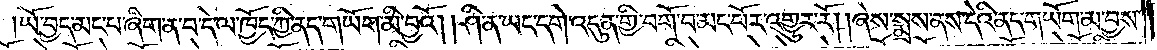ཡོ་བྱད་མང་པ་ཞིག་ན་བ་དེ་ལ་ཁྱོད་ཀྱི་ནད་གཡོག་མི་བྱའོ། །ཤི་ན་ཡང་དགེ་འདུན་གྱི་བགོ་བ་མང་པོར་འགྱུར་རོ། །ཞེས་སྨྲས་ནས་དེའི་ནད་གཡོག་མ་བྱས་
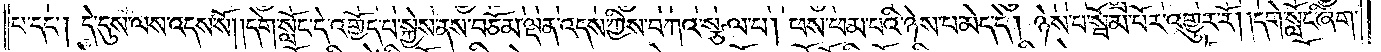པ་དང༌། དེ་དུས་ལས་འདས་སོ། །དགེ་སློང་དེ་འགྱོད་པ་སྐྱེས་ནས་བཅོམ་ལྡན་འདས་ཀྱིས་བཀའ་སྩལ་པ། ཕས་ཕམ་པའི་ཉེས་པ་མེད་དེ། ཉེས་པ་སྦོམ་པོར་འགྱུར་རོ། །དགེ་སློང་ཞིག།
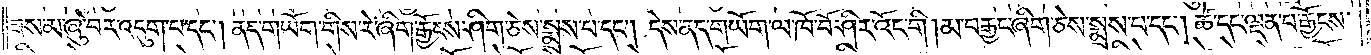ཟས་མ་ཞུ་བར་འདུག་པ་དང༌། ནད་གཡོག་གིས་རེ་ཞིག་རྒྱོངས་ཤིག་ཅེས་སྨྲས་པ་དང༌། དེས་ནད་གཡོག་ལ་ཁོ་བོ་ཤིར་འོང་གི །མ་བརྒྱང་ཞིག་ཅེས་སྨྲས་པ་དང༌། ཚེ་དང་ལྡན་པ་རྒྱོངས་
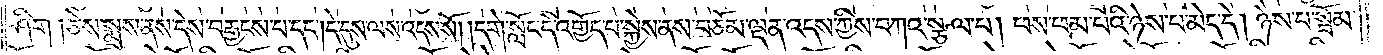ཤིག །ཅེས་སྨྲས་ནས་དེས་བརྒྱངས་པ་དང༌། དེ་དུས་ལས་འདས་སོ། །དགེ་སློང་དེ་འགྱོད་པ་སྐྱེས་ནས་བཅོམ་ལྡན་འདས་ཀྱིས་བཀའ་སྩལ་པ། ཕས་ཕམ་པའི་ཉེས་པ་མེད་དེ། ཉེས་པ་སྦོམ་
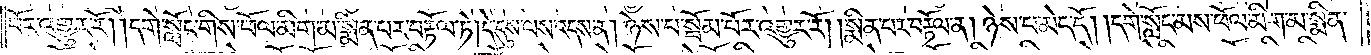པོར་འགྱུར་རོ། །དགེ་སློང་གིས་ཕོལ་མིག་མ་སྨིན་པར་བརྟོལ་ཏེ། དེ་དུས་ལས་འདས་ན། ཉེས་པ་སྦོམ་པོར་འགྱུར་རོ། །སྨིན་པར་བརྟོལ་ན། ཉེས་པ་མེད་དོ། །དགེ་སློང་མས་ཕོལ་མིག་མ་སྨིན་
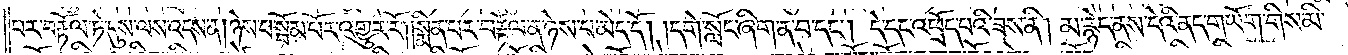པར་བརྟོལ་ཏེ་དུས་ལས་འདས་ན། ཉེས་པ་སྦོམ་པོར་འགྱུར་རོ། །སྨིན་པར་བརྟོལ་ན་ཉེས་པ་མེད་དོ། །དགེ་སློང་ཞིག་ན་བ་དང༌། དེ་དང་འཕྲོད་པའི་ཟས་ནི། མ་རྙེད་ནས་དེའི་ནད་གཡོག་གིས་མི་
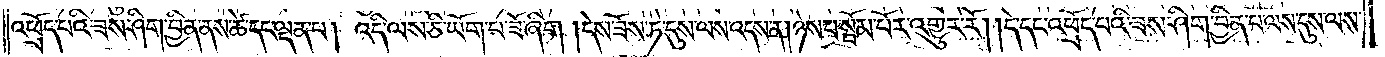འཕྲོད་པའི་ཟས་ཤིག་བྱིན་ནས་ཚེ་དང་ལྡན་པ། འདི་ལས་ཅི་ཡོག་པ་ཟོ་ཞིག །དེས་ཟོས་ཏེ་དུས་ལས་འདས་ན། ཉེས་པ་སྦོམ་པོར་འགྱུར་རོ། །དེ་དང་འཕྲོད་པའི་ཟས་ཤིག་བྱིན་པ་ལས་དུས་ལས་
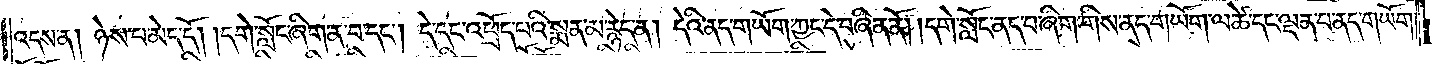འདས་ན། ཉེས་པ་མེད་དོ། །དགེ་སློང་ཞིག་ན་བ་དང༌། དེ་དང་འཕྲོད་པའི་སྨན་མ་རྙེད་ན། དེའི་ནད་གཡོག་ཀྱང་དེ་བཞིན་ནོ། །དགེ་སློང་ནད་བ་ཞིག་གིས་ནད་གཡོག་ལ་ཚེ་དང་ལྡན་པ་ནད་གཡོག།
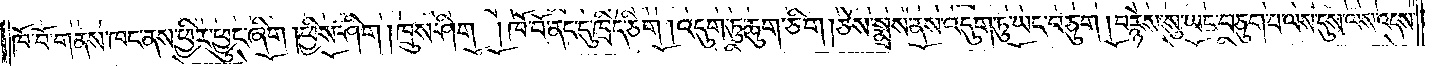ཁོ་བོ་གནས་ཁང་ནས་ཕྱིར་ཕྱུང་ཞིག །ཕྱིས་ཤིག །ཁྲུས་ཤིག །ཁོ་བོ་ནང་དུ་ཁྲིད་ཅིག །འདུག་ཏུ་ཆུག་ཅིག །ཅེས་སྨྲས་ནས་འདུག་ཏུ་ཡང་བཅུག །བརྙེས་སུ་ཡང་བཅུག་པ་ལས་དུས་ལས་འདས་
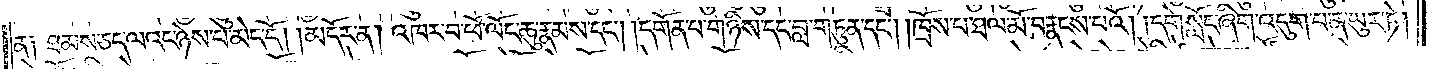ན༑ ཐམས་ཅད་ལའང་ཉེས་པ་མེད་དོ། །མདོར་ན། འཁར་བ་ཕོ་ལོང་ཆུ་རྣམས་དང༌། །དགོན་པ་གཉིས་དང་བླ་གཏུན་དང༌། ཁྲོས་པ་ཐལ་མོ་བརྣངས་པའོ། །དགེ་སློང་ཞིག་འདུག་པ་ན་ཡུར་ཏེ།
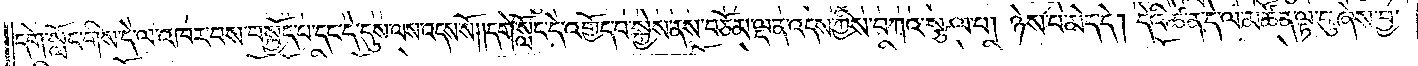དགེ་སློང་གིས་དེ་ལ་འཁར་བས་བསྐྱོད་པ་དང་དེ་དུས་ལས་འདས་སོ། །དགེ་སློང་དེ་འགྱོད་པ་སྐྱེས་ནས་བཅོམ་ལྡན་འདས་ཀྱིས་བཀའ་སྩལ་པ། ཉེས་པ་མེད་དེ། དེའི་ཚེ་ན་དེ་ལ་མཚོན་ལྟ་བུ་ཞེས་བྱ་
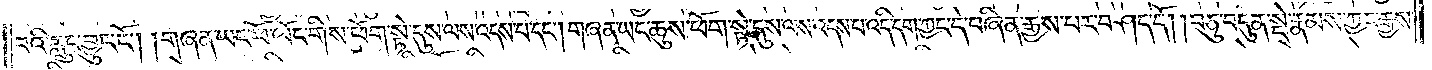བའི་རླུང་བྱུང་ངོ༌། །གཞན་ཡང་ཕོ་ལོང་གིས་ཕོག་སྟེ་དུས་ལས་འདས་པ་དང༌། གཞན་ཡང་ཆུས་ཕོག་སྟེ་དུས་ལས་འདས་པ་འདི་དག་ཀྱང་དེ་བཞིན་རྒྱས་པར་བཤད་དོ། །བཅུ་བདུན་སྡེ་རྣམས་ཀྱང་རྒྱས་
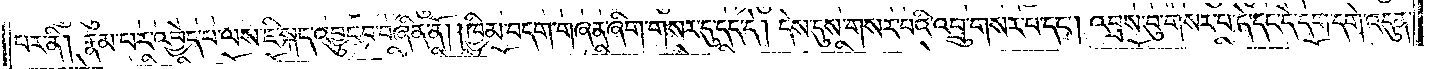པར་ནི། རྣམ་པར་འབྱེད་པ་ལས་ཇི་སྐད་འབྱུང་བ་བཞིན་ནོ། །ཁྱིམ་བདག་གཞན་ཞིག་གསར་དུ་དད་དེ། དེས་དུས་གསར་བའི་འབྲུ་གསར་པ་དང༌། འབྲས་བུ་གསར་པ་དེ་དང་དེ་དག་དགེ་འདུན་
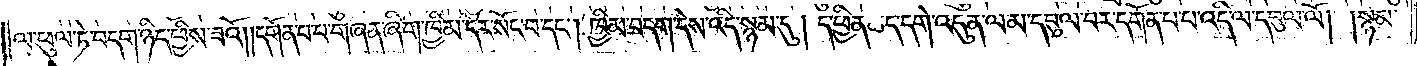ལ་ཕུལ་ཏེ་བདག་ཉིད་ཕྱིས་ཟའོ། །དགོན་པ་པ་གཞན་ཞིག་ཁྱིམ་དེར་སོང་བ་དང༌། ཁྱིམ་བདག་དེས་འདི་སྙམ་དུ། ད་ཕྱིན་ཆད་དགེ་འདུན་ལ་མ་དབུལ་བར་དགོན་པ་པ་འདི་ལ་དབུལ་ལོ། །སྙམ་
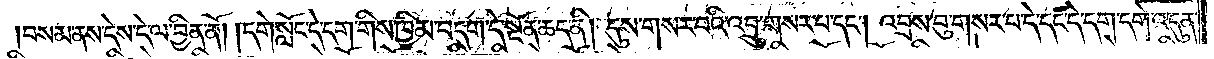བསམ་ནས་དེས་དེ་ལ་བྱིན་ནོ། །དགེ་སློང་དེ་དག་གིས་ཁྱིམ་བདག་དེ་སྔོན་ཆད་ནི། དུས་གསར་བའི་འབྲུ་གསར་པ་དང༌། འབྲས་བུ་གསར་པ་དེ་དང་དེ་དག་དགེ་འདུན་
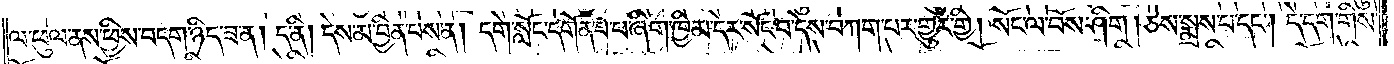ལ་ཕུལ་ནས་ཕྱིས་བདག་ཉིད་ཟ་ན། ད་ནི། དེས་མ་བྱིན་པས་ན། དགེ་སློང་དགོན་པ་པ་ཞིག་ཁྱིམ་དེར་སོང་བ་དེས་བཀག་པར་གྱུར་གྱི། སོང་ལ་བོས་ཤིག །ཅེས་སྨྲས་པ་དང༌། དེ་དག་གིས་
